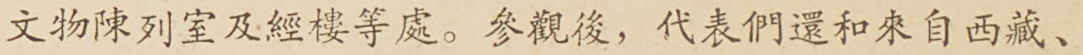文物陳列室及經樓等處。參觀後，代表們還和來自西藏、
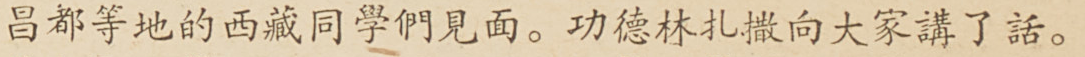昌都等地的西藏同學們見面。功德林扎撒向大家講了話。
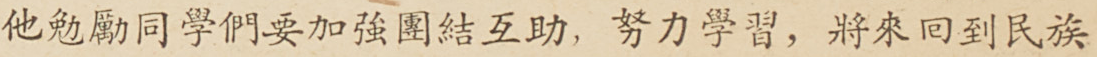他勉勵同學們要加強團結互助，努力學習，將來囘到民族
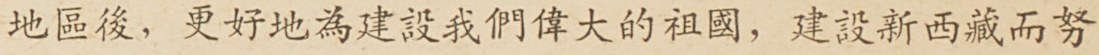地區後，更好地爲建設我們偉大的祖國，建設新西藏而努
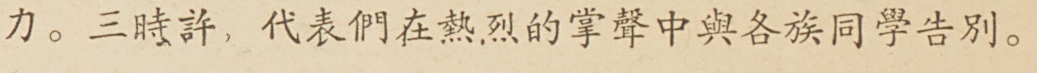力。三時許，代表們在熱烈的掌聲中與各族同學告別。
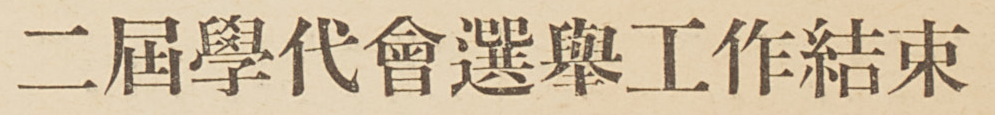二屆學代會選舉工作結束
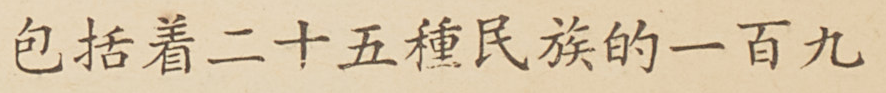包括着二十五種民族的一百九
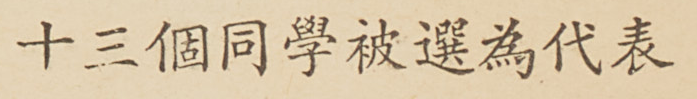十三個同學被選爲代表
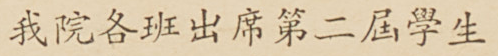我院各班出席第二屆學生
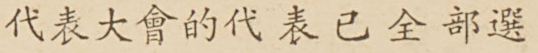代表大會的代表已全部選
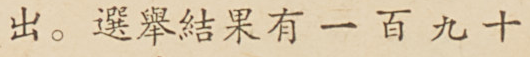出。選舉結果有一百九十
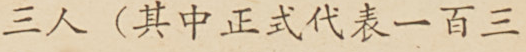三人（其中正式代表一百三
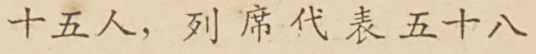十五人，列席代表五十八
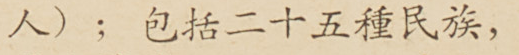人）；包括二十五種民族，
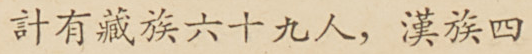計有藏族六十九人，漢族四
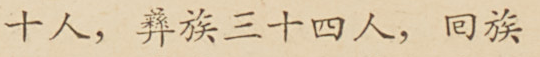十人，彝族三十四人，囘族
